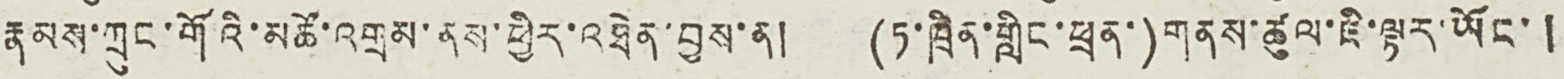རྣམས་ཀྲུང་གོའི་མཚོ་འགྲམ་ནས་ཕྱིར་འཐེན་བྱས་ན། (ཏ་ཁྲིན་གླིང་ཕྲན་) གནས་ཚུལ་ཇི་ལྟར་ཡོང་།
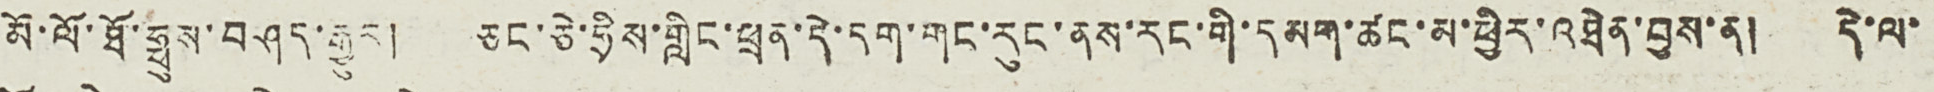མོ་ལོ་ཐོ་ཧྥུས་བཤད་རྒྱུར། ཅང་ཅེ་ཧྲིས་གླིང་ཕྲན་དེ་དག་གང་རུང་ནས་རང་གི་དམག་ཚང་མ་ཕྱིར་འཐེན་བྱས་ན། དེ་ལ་
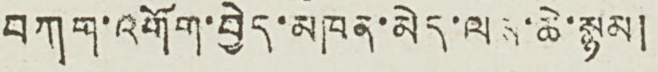བཀག་འགོག་བྱེད་མཁན་མེད་ལས་ཆེ་སྙམ།
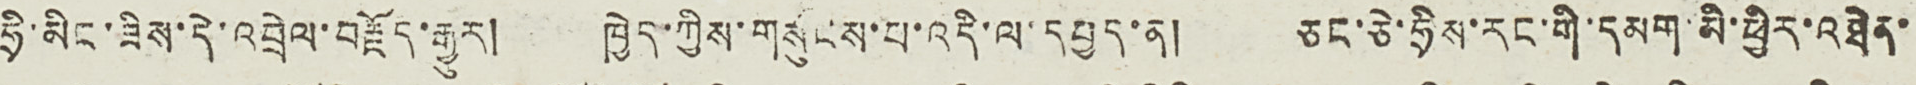ཧྲི་མིང་ཟིས་དེ་འབྲེལ་བརྗོད་རྒྱུར། ཁྱེད་ཀྱིས་གསུངས་པ་འདི་ལ་དཔྱད་ན། ཅང་ཅེ་ཧྲིས་རང་གི་དམག་མི་ཕྱིར་འཐེན་
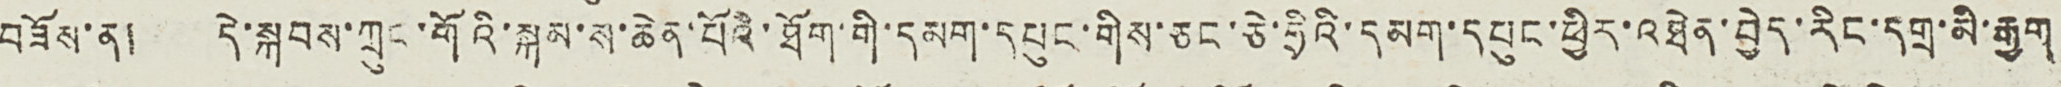བཟོས་ན། དེ་སྐབས་ཀྲུང་གོའི་སྐམ་ས་ཆེན་པོའི་ཐོག་གི་དམག་དཔུང་གིས་ཅང་ཅེ་ཧྲིའི་དམག་དཔུང་ཕྱིར་འཐེན་བྱེད་རིང་དགྲ་མི་རྒྱག
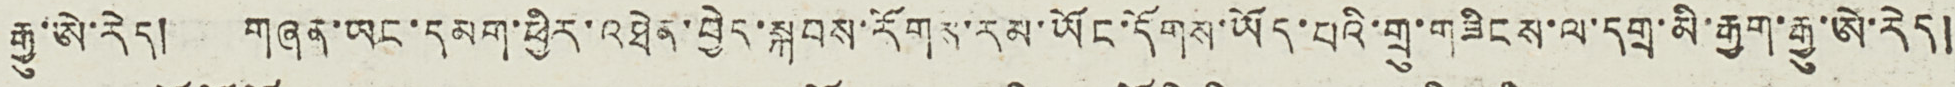རྒྱུ་ཨེ་རེད། གཞན་ཡང་དམག་ཕྱིར་འཐེན་བྱེད་སྐབས་རོགས་རམ་ཡོང་དོགས་ཡོད་པའི་གྲུ་གཟིངས་ལ་དགྲ་མི་རྒྱག་རྒྱུ་ཨེ་རེད།
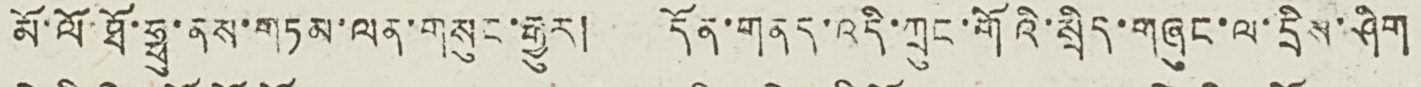མོ་ལོ་ཐོ་ཧྥུ་ནས་གཏམ་ལན་གསུང་རྒྱུར། དོན་གནད་འདི་ཀྲུང་གོའི་སྲིད་གཞུང་ལ་དྲིས་ཤིག
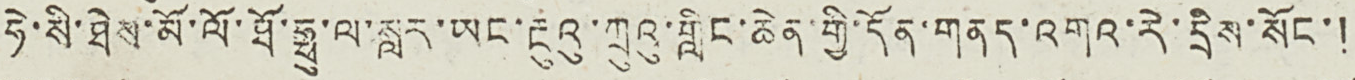ཧེ་སི་ཐེས་མོ་ལོ་ཐོ་ཧྥུ་ལ་སླར་ཡང་རྔུའུ་ཀྲུའུ་གླིང་ཆེན་གྱི་དོན་གནད་འགའ་རེ་དྲིས་སོང་།
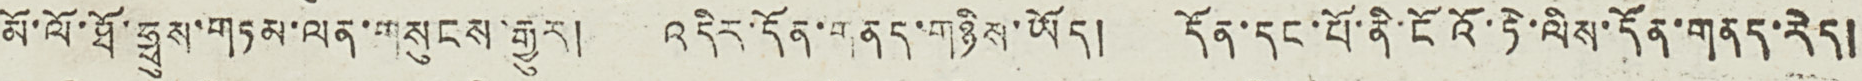མོ་ལོ་ཐོ་ཧྥུས་གཏམ་ལན་གསུངས་རྒྱུར། འདིར་དོན་གནད་གཉིས་ཡོད། དོན་དང་པོ་ནི་ངོའོ་ཏེ་ལིས་དོན་གནད་རེད།
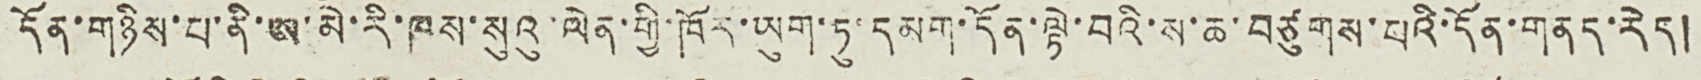དོན་གཉིས་པ་ནི་ཨ་མེ་རི་ཁས་སུའུ་ལེན་གྱི་ཁོར་ཡུག་ཏུ་དམག་དོན་ལྟེ་བའི་ས་ཆ་བཙུགས་པའི་དོན་གནད་རེད།
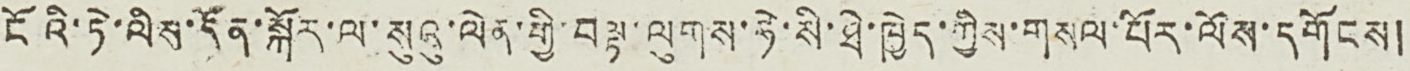ངོའི་ཏེ་ལིས་དོན་སྐོར་ལ་སུའུ་ལེན་གྱི་བལྟ་ལུགས་ཧེ་སི་ཐེ་ཁྱེད་ཀྱིས་གསལ་པོར་ལོས་དགོངས།
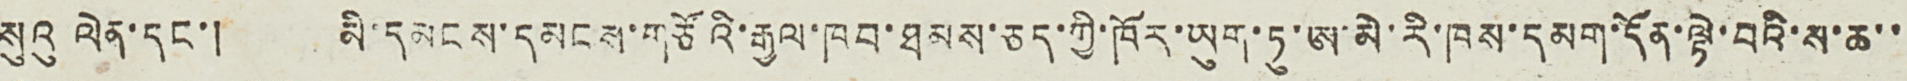སུའུ ལེན་དང་། མི་དམངས་དམངས་གཙོའི་རྒྱལ་ཁབ་ཐམས་ཅད་ཀྱི་ཁོར་ཡུག་ཏུ་ཨ་མེ་རི་ཁས་དམག་དོན་ལྟེ་བའི་ས་ཆ་་
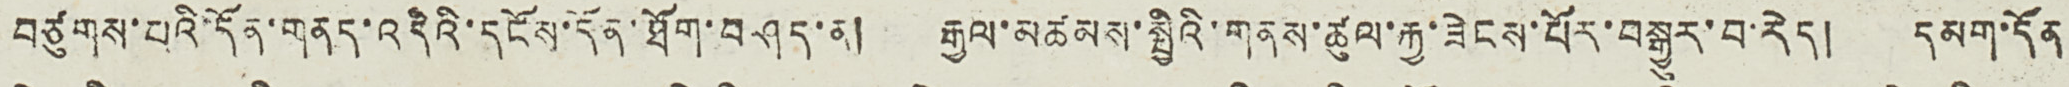བཙུགས་པའི་དོན་གནད་འདིའི་དངོས་དོན་ཐོག་བཤད་ན། རྒྱལ་མཚམས་སྤྱིའི་གནས་ཚུལ་རྐྱ་ཟེངས་པོར་བསྒྱུར་བ་རེད། དམག་དོན
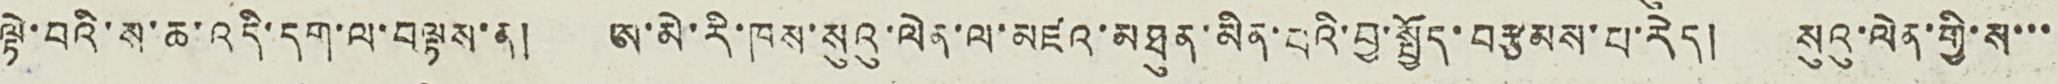ལྟེ་བའི་ས་ཆ་འདི་དག་ལ་བལྟས་ན། ཨ་མེ་རི་ཁས་སུའུ་ལེན་ལ་མཛའ་མཐུན་མིན་པའི་བྱ་སྤྱོད་བརྩམས་པ་རེད། སུའུ་ལེན་གྱི་ས་་་
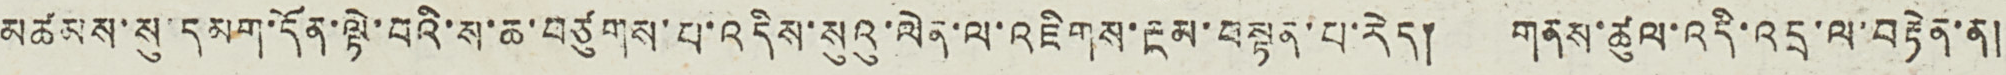མཚམས་སུ་དམག་དོན་ལྟེ་བའི་ས་ཆ་བཙུགས་པ་འདིས་སུའུ་ལེན་ལ་འཇིགས་རྔམ་བསྟན་པ་རེད། གནས་ཚུལ་འདི་འདྲ་ལ་བརྟེན་ན།
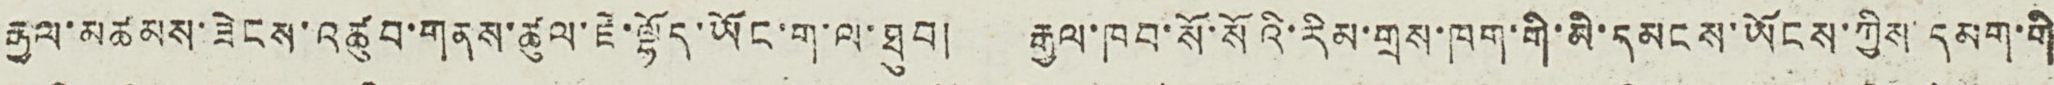རྒྱལ་མཚམས་ཟེངས་འཚུབ་གནས་ཚུལ་ཇེ་ལྷོད་ཡོང་ག་ལ་ཐུབ། རྒྱལ་ཁབ་སོ་སོའི་རིམ་གྲས་ཁག་གི་མི་དམངས་ཡོངས་ཀྱིས་དམག་གི
